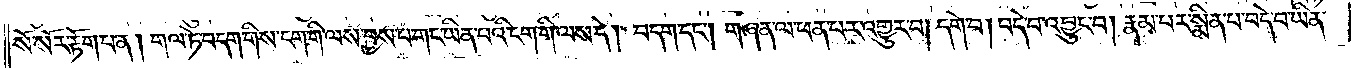སོ་སོར་རྟོག་པ་ན། གལ་ཏེ་བདག་གིས་ངག་གི་ལས་བྱས་པ་གང་ཡིན་པའི་ངག་གི་ལས་དེ། བདག་དང༌། གཞན་ལ་ཕན་པར་འགྱུར་བ། དགེ་བ། བདེ་བ་འབྱུང་བ། རྣམ་པར་སྨིན་པ་བདེ་བ་ཡིན་
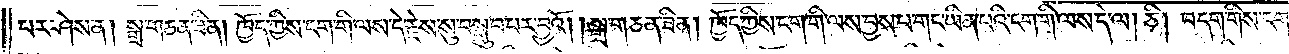པར་ཤེས་ན། སྒྲ་གཅན་ཟིན། ཁྱོད་ཀྱིས་ངག་གི་ལས་དེ་རྗེས་སུ་བསྒྲུབ་པར་བྱའོ། །སྒྲ་གཅན་ཟིན། ཁྱོད་ཀྱིས་ངག་གི་ལས་བྱས་པ་གང་ཡིན་པའི་ངག་གི་ལས་དེ་ལ། ཅི། བདག་གིས་ངག་གི་ལས་བྱས་
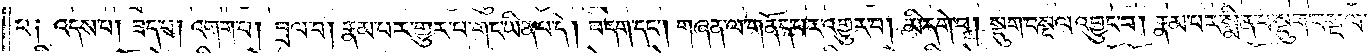པ༑ འདས་པ། ཟད་པ། འགག་པ། བྲལ་བ། རྣམ་པར་གྱུར་པ་གང་ཡིན་པ་དེ། བདག་དང༌། གཞན་ལ་གནོད་པར་འགྱུར་བ། མི་དགེ་བ། སྡུག་བསྔལ་འབྱུང་བ། རྣམ་པར་སྨིན་པ་སྡུག་བསྔལ་
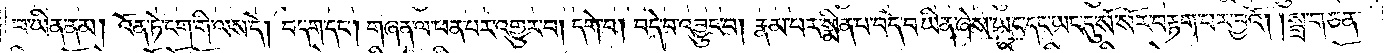བ་ཡིན་ནམ། འོན་ཏེ་ངག་གི་ལས་དེ། བདག་དང༌། གཞན་ལ་ཕན་པར་འགྱུར་བ། དགེ་བ། བདེ་བ་འབྱུང་བ། རྣམ་པར་སྨིན་པ་བདེ་བ་ཡིན་ཞེས་ཡང་དང་ཡང་དུ་སོ་སོར་བརྟག་པར་བྱའོ། །སྒྲ་གཅན་
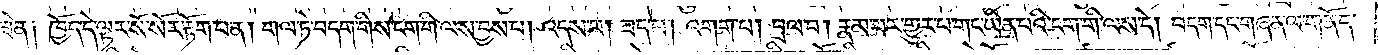ཟིན༑ ཁྱོད་དེ་ལྟར་སོ་སོར་རྟོག་པ་ན། གལ་ཏེ་བདག་གིས་ངག་གི་ལས་བྱས་པ། འདས་པ། ཟད་པ། འགག་པ། བྲལ་བ། རྣམ་པར་གྱུར་པ་གང་ཡིན་པའི་ངག་གི་ལས་དེ། བདག་དང་གཞན་ལ་གནོད་
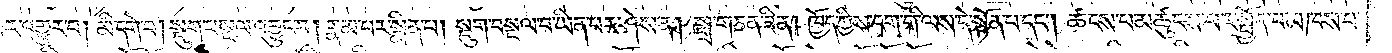པར་འགྱུར་བ། མི་དགེ་བ། སྡུག་བསྔལ་འབྱུང་བ། རྣམ་པར་སྨིན་པ། སྡུག་བསྔལ་བ་ཡིན་པར་ཤེས་ན། སྒྲ་གཅན་ཟིན། ཁྱོད་ཀྱིས་ངག་གི་ལས་དེ་སྟོན་པ་དང༌། ཚངས་པ་མཚུངས་པར་སྤྱོད་པ་མཁས་པ་
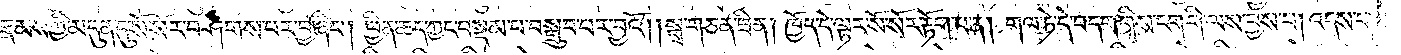རྣམས་ཀྱི་མདུན་དུ་སོ་སོར་བཤགས་པར་བྱ་ཞིང༌། ཕྱིན་ཆད་ཀྱང་བསྡམ་པ་བསྒྲུབ་པར་བྱའོ། །སྒྲ་གཅན་ཟིན། ཁྱོད་དེ་ལྟར་སོ་སོར་རྟོག་པ་ན། གལ་ཏེ་དེ་བདག་གིས་ངག་གི་ལས་བྱས་པ། འདས་པ།
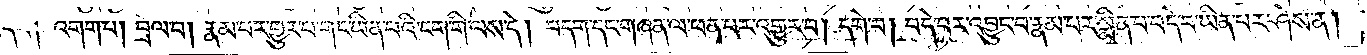ཟད་པ། འགག་པ་དང༌། བྲལ་བ། རྣམ་པར་གྱུར་པ་གང་ཡིན་པའི་ངག་གི་ལས་དེ། བདག་དང་གཞན་ལ་ཕན་པར་འགྱུར་བ། དགེ་བ། བདེ་བར་འབྱུང་བ་རྣམ་པར་སྨིན་པ་བདེ་བ་ཡིན་པར་ཤེས་ན།
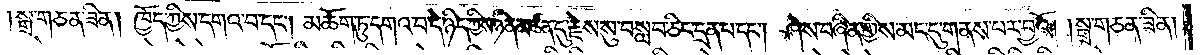སྒྲ་གཅན་ཟིན། ཁྱོད་ཀྱིས་དགའ་བ་དང༌། མཆོག་ཏུ་དགའ་བ་དེ་ཉིད་ཀྱིས་ཉིན་མཚན་དུ་རྗེས་སུ་བསླབ་ཅིང་དྲན་པ་དང༌། ཤེས་བཞིན་གྱིས་མང་དུ་གནས་པར་བྱའོ། །སྒྲ་གཅན་ཟིན།
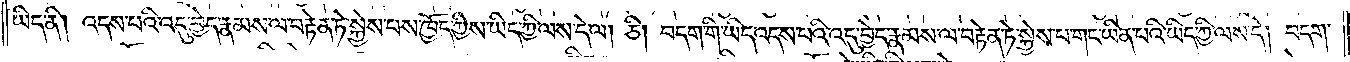ཡིད་ནི། འདས་པའི་འདུ་བྱེད་རྣམས་ལ་བརྟེན་ཏེ་སྐྱེས་པས་ཁྱོད་ཀྱིས་ཡིད་ཀྱི་ལས་དེ་ལ། ཅི། བདག་གི་ཡིད་འདས་པའི་འདུ་བྱེད་རྣམས་ལ་བརྟེན་ཏེ་སྐྱེས་པ་གང་ཡིན་པའི་ཡིད་ཀྱི་ལས་དེ། བདག་
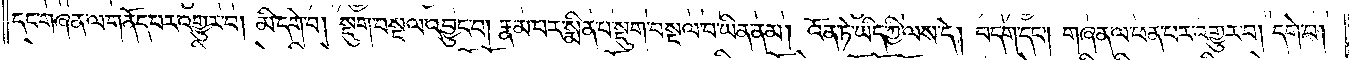དང་གཞན་ལ་གནོད་པར་འགྱུར་བ། མི་དགེ་བ། སྡུག་བསྔལ་འབྱུང་བ། རྣམ་པར་སྨིན་པ་སྡུག་བསྔལ་བ་ཡིན་ནམ། འོན་ཏེ་ཡིད་ཀྱི་ལས་དེ། བདག་དང༌། གཞན་ལ་ཕན་པར་འགྱུར་བ། དགེ་བ།
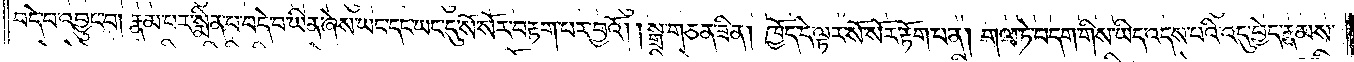བདེ་བ་འབྱུང་བ། རྣམ་པར་སྨིན་པ་བདེ་བ་ཡིན་ཞེས་ཡང་དང་ཡང་དུ་སོ་སོར་བརྟག་པར་བྱའོ། །སྒྲ་གཅན་ཟིན། ཁྱོད་དེ་ལྟར་སོ་སོར་རྟོག་པ་ན། གལ་ཏེ་བདག་གིས་ཡིད་འདས་པའི་འདུ་བྱེད་རྣམས་
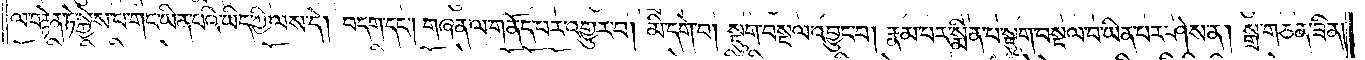ལ་བརྟེན་ཏེ་སྐྱེས་པ་གང་ཡིན་པའི་ཡིད་ཀྱི་ལས་དེ། བདག་དང༌། གཞན་ལ་གནོད་པར་འགྱུར་བ། མི་དགེ་བ། སྡུག་བསྔལ་འབྱུང་བ། རྣམ་པར་སྨིན་པ་སྡུག་བསྔལ་བ་ཡིན་པར་ཤེས་ན། སྒྲ་གཅན་ཟིན།
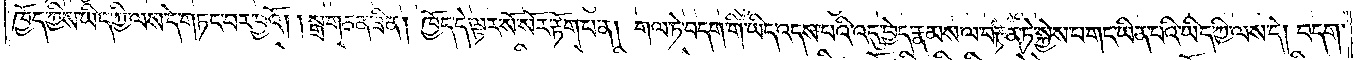ཁྱོད་ཀྱིས་ཡིད་ཀྱི་ལས་དེ་གཏང་བར་བྱའོ། །སྒྲ་གཅན་ཟིན། ཁྱོད་དེ་ལྟར་སོ་སོར་རྟོག་པ་ན། གལ་ཏེ་བདག་གི་ཡིད་འདས་པའི་འདུ་བྱེད་རྣམས་ལ་བརྟེན་ཏེ་སྐྱེས་པ་གང་ཡིན་པའི་ཡིད་ཀྱི་ལས་དེ། བདག་
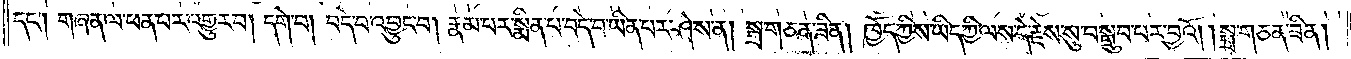དང༌། གཞན་ལ་ཕན་པར་འགྱུར་བ། དགེ་བ། བདེ་བ་འབྱུང་བ། རྣམ་པར་སྨིན་པ་བདེ་བ་ཡིན་པར་ཤེས་ན། སྒྲ་གཅན་ཟིན། ཁྱོད་ཀྱིས་ཡིད་ཀྱི་ལས་དེ་རྗེས་སུ་བསྒྲུབ་པར་བྱའོ། །སྒྲ་གཅན་ཟིན།
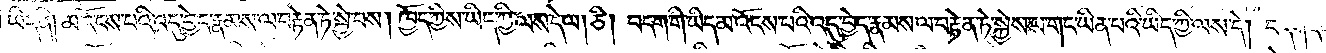ཡིད་ནི། མ་འོངས་པའི་འདུ་བྱེད་རྣམས་ལ་བརྟེན་ཏེ་སྐྱེ་བས། ཁྱོད་ཀྱིས་ཡིད་ཀྱི་ལས་དེ་ལ། ཅི། བདག་གི་ཡིད་མ་འོངས་པའི་འདུ་བྱེད་རྣམས་ལ་བརྟེན་ཏེ་སྐྱེས་པ་གང་ཡིན་པའི་ཡིད་ཀྱི་ལས་དེ། བདག་དང༌།
